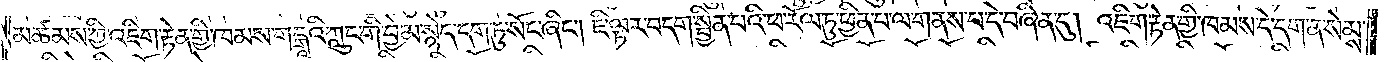མཚམས་ཀྱི་འཇིག་རྟེན་གྱི་ཁམས་གངྒཱའི་ཀླུང་གི་བྱེ་མ་སྙེད་དག་ཏུ་སོང་ཞིང༌། ཇི་ལྟར་བདག་སྦྱིན་པའི་ཕ་རོལ་ཏུ་ཕྱིན་པ་ལ་གནས་པ་དེ་བཞིན་དུ། འཇིག་རྟེན་གྱི་ཁམས་དེ་དག་ན་སེམས་
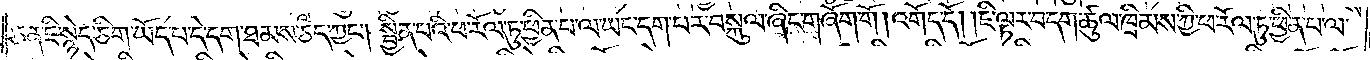ཅན་ཇི་སྙེད་ཅིག་ཡོད་པ་དེ་དག་ཐམས་ཅད་ཀྱང༌། སྦྱིན་པའི་ཕ་རོལ་ཏུ་ཕྱིན་པ་ལ་ཡང་དག་པར་བསྐུལ་ཞིང་གཞོག་གོ །འགོད་དོ། །ཇི་ལྟར་བདག་ཚུལ་ཁྲིམས་ཀྱི་ཕ་རོལ་ཏུ་ཕྱིན་པ་ལ་
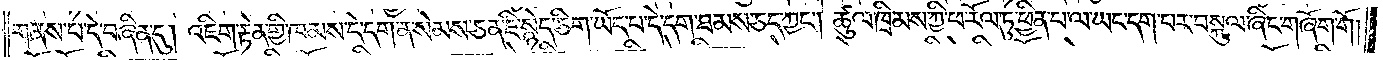གནས་པ་དེ་བཞིན་དུ། འཇིག་རྟེན་གྱི་ཁམས་དེ་དག་ན། སེམས་ཅན་ཇི་སྙེད་ཅིག་ཡོད་པ་དེ་དག་ཐམས་ཅད་ཀྱང༌། ཚུལ་ཁྲིམས་ཀྱི་ཕ་རོལ་ཏུ་ཕྱིན་པ་ལ་ཡང་དག་པར་བསྐུལ་ཞིང་གཞོག་གོ །
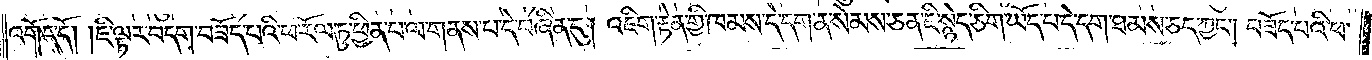འགོད་དོ། །ཇི་ལྟར་བདག་བཟོད་པའི་ཕ་རོལ་ཏུ་ཕྱིན་པ་ལ་གནས་པ་དེ་བཞིན་དུ། འཇིག་རྟེན་གྱི་ཁམས་དེ་དག་ན། སེམས་ཅན་ཇི་སྙེད་ཅིག་ཡོད་པ་དེ་དག་ཐམས་ཅད་ཀྱང༌། བཟོད་པའི་ཕ་
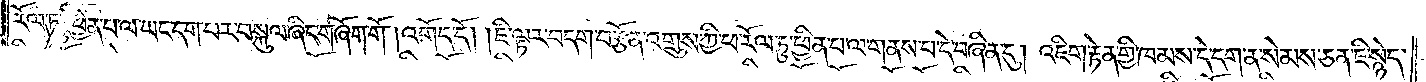རོལ་ཏུ་ཕྱིན་པ་ལ་ཡང་དག་པར་བསྐུལ་ཞིང་གཞོག་གོ །འགོད་དོ། །ཇི་ལྟར་བདག་བརྩོན་འགྲུས་ཀྱི་ཕ་རོལ་ཏུ་ཕྱིན་པ་ལ་གནས་པ་དེ་བཞིན་དུ། འཇིག་རྟེན་གྱི་ཁམས་དེ་དག་ན་སེམས་ཅན་ཇི་སྙེད་
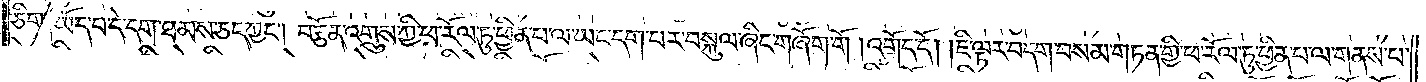ཅིག་ཡོད་པ་དེ་དག་ཐམས་ཅད་ཀྱང༌། བརྩོན་འགྲུས་ཀྱི་ཕ་རོལ་ཏུ་ཕྱིན་པ་ལ་ཡང་དག་པར་བསྐུལ་ཞིང་གཞོག་གོ །འགོད་དོ། །ཇི་ལྟར་བདག་བསམ་གཏན་གྱི་ཕ་རོལ་ཏུ་ཕྱིན་པ་ལ་གནས་པ་
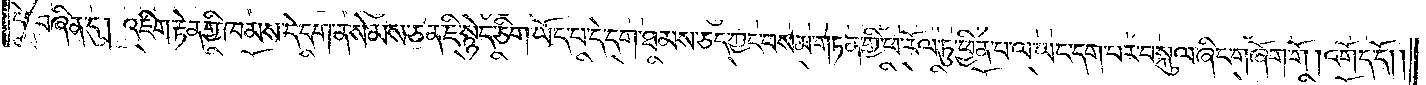དེ་བཞིན་དུ། འཇིག་རྟེན་གྱི་ཁམས་དེ་དག་ན་སེམས་ཅན་ཇི་སྙེད་ཅིག་ཡོད་པ་དེ་དག་ཐམས་ཅད་ཀྱང་བསམ་གཏན་གྱི་ཕ་རོལ་ཏུ་ཕྱིན་པ་ལ་ཡང་དག་པར་བསྐུལ་ཞིང་གཞོག་གོ །འགོད་དོ། །
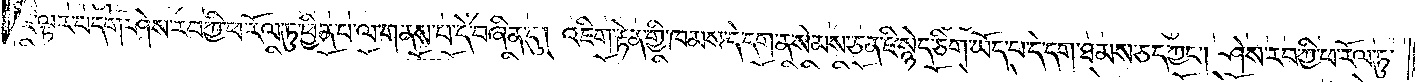ཇི་ལྟར་བདག་ཤེས་རབ་ཀྱི་ཕ་རོལ་ཏུ་ཕྱིན་པ་ལ་གནས་པ་དེ་བཞིན་དུ། འཇིག་རྟེན་གྱི་ཁམས་དེ་དག་ན་སེམས་ཅན་ཇི་སྙེད་ཅིག་ཡོད་པ་དེ་དག་ཐམས་ཅད་ཀྱང༌། ཤེས་རབ་ཀྱི་ཕ་རོལ་ཏུ་
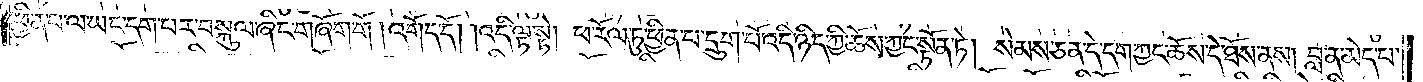ཕྱིན་པ་ལ་ཡང་དག་པར་བསྐུལ་ཞིང་གཞོག་གོ །འགོད་དོ། །འདི་ལྟ་སྟེ། ཕ་རོལ་ཏུ་ཕྱིན་པ་དྲུག་པོ་འདི་ཉིད་ཀྱི་ཆོས་ཀྱང་སྟོན་ཏེ། སེམས་ཅན་དེ་དག་ཀྱང་ཆོས་དེ་ཐོས་ནས། བླ་ན་མེད་པ་
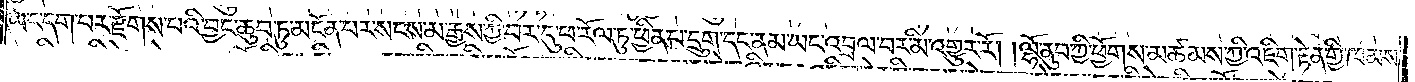ཡང་དག་པར་རྫོགས་པའི་བྱང་ཆུབ་ཏུ་མངོན་པར་སངས་མ་རྒྱས་ཀྱི་བར་དུ་ཕ་རོལ་ཏུ་ཕྱིན་པ་དྲུག་དང་ནམ་ཡང་འབྲལ་བར་མི་འགྱུར་རོ། །ལྷོ་ནུབ་ཀྱི་ཕྱོགས་མཚམས་ཀྱི་འཇིག་རྟེན་གྱི་ཁམས་
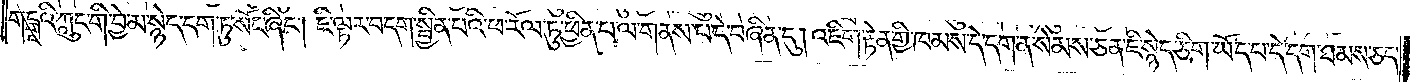གངྒཱའི་ཀླུང་གི་བྱེ་མ་སྙེད་དག་ཏུ་སོང་ཞིང༌། ཇི་ལྟར་བདག་སྦྱིན་པའི་ཕ་རོལ་ཏུ་ཕྱིན་པ་ལ་གནས་པ་དེ་བཞིན་དུ། འཇིག་རྟེན་གྱི་ཁམས་དེ་དག་ན། སེམས་ཅན་ཇི་སྙེད་ཅིག་ཡོད་པ་དེ་དག་ཐམས་ཅད་
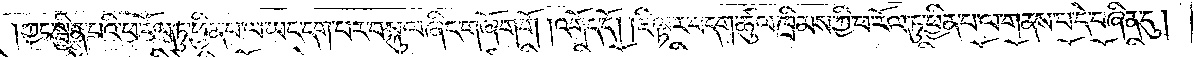ཀྱང་སྦྱིན་པའི་ཕ་རོལ་ཏུ་ཕྱིན་པ་ལ་ཡང་དག་པར་བསྐུལ་ཞིང་གཞོག་གོ །འགོད་དོ། །ཇི་ལྟར་བདག་ཚུལ་ཁྲིམས་ཀྱི་ཕ་རོལ་ཏུ་ཕྱིན་པ་ལ་གནས་པ་དེ་བཞིན་དུ།
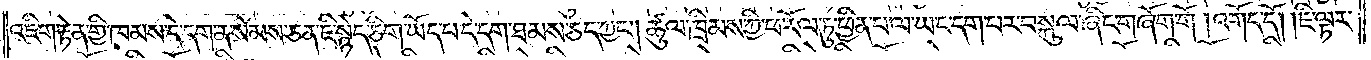འཇིག་རྟེན་གྱི་ཁམས་དེ་དག་ན་སེམས་ཅན་ཇི་སྙེད་ཅིག་ཡོད་པ་དེ་དག་ཐམས་ཅད་ཀྱང༌། ཚུལ་ཁྲིམས་ཀྱི་ཕ་རོལ་ཏུ་ཕྱིན་པ་ལ་ཡང་དག་པར་བསྐུལ་ཞིང་གཞོག་གོ །འགོད་དོ། །ཇི་ལྟར་
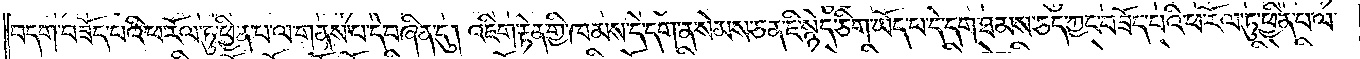བདག་བཟོད་པའི་ཕ་རོལ་ཏུ་ཕྱིན་པ་ལ་གནས་པ་དེ་བཞིན་དུ། འཇིག་རྟེན་གྱི་ཁམས་དེ་དག་ན་སེམས་ཅན་ཇི་སྙེད་ཅིག་ཡོད་པ་དེ་དག་ཐམས་ཅད་ཀྱང་བཟོད་པའི་ཕ་རོལ་ཏུ་ཕྱིན་པ་ལ་
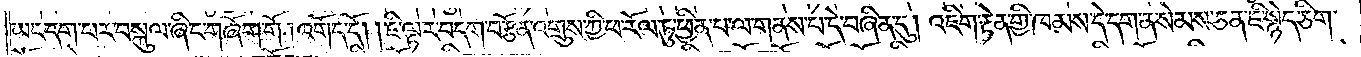ཡང་དག་པར་བསྐུལ་ཞིང་གཞོག་གོ །འགོད་དོ། །ཇི་ལྟར་བདག་བརྩོན་འགྲུས་ཀྱི་ཕ་རོལ་ཏུ་ཕྱིན་པ་ལ་གནས་པ་དེ་བཞིན་དུ། འཇིག་རྟེན་གྱི་ཁམས་དེ་དག་ན་སེམས་ཅན་ཇི་སྙེད་ཅིག་
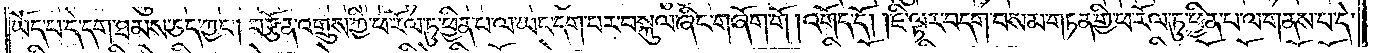ཡོད་པ་དེ་དག་ཐམས་ཅད་ཀྱང༌། བརྩོན་འགྲུས་ཀྱི་ཕ་རོལ་ཏུ་ཕྱིན་པ་ལ་ཡང་དག་པར་བསྐུལ་ཞིང་གཞོག་གོ །འགོད་དོ། །ཇི་ལྟར་བདག་བསམ་གཏན་གྱི་ཕ་རོལ་ཏུ་ཕྱིན་པ་ལ་གནས་པ་དེ་
